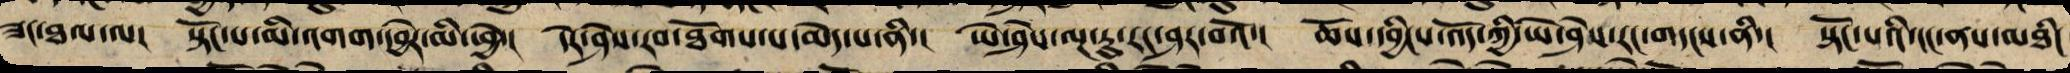ཟང་ཐལ་ལ་། སྟོང་པ་མི་འགག་དབྱེར་མི་ཕྱེ་། དེར་ཤེས་རབ་ཐོགས་པ་མེད་པ་ནི་། ཡེ་ཤེས་ལྔ་རུ་རང་ཤར་བའོ་། ཆོས་དབྱིངས་འོད་ཀྱི་ཡེ་ཤེས་རང་གདངས་ནི་། སྟོང་པའི་ངང་ནས་མཐིང
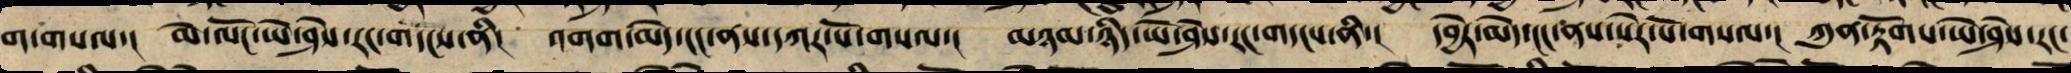ག་གསལ་། མེ་ལོང་ཡེ་ཤེས་རང་གདངས་ནི། འགག་མེད་ངང་ནས་དཀར་པོ་གསལ་། མཉམ་ཉིད་ཡེ་ཤེས་རང་གདངས་ནི་། དབྱེར་མེད་ངང་ནས་སེར་པོར་གསལ་། ཀུན་རྟོགས་ཡེ་ཤེས་རང་
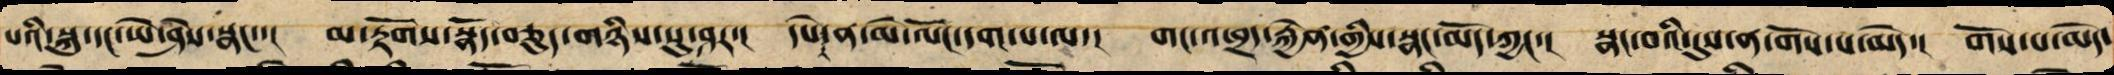པའི་སྐུ་དང་ཡེ་ཤེས་སྣང་་། མ་རྟོགས་སྣོད་བཅུད་གཉིས་སུ་ཤར་། དཔེ་ན་མེ་ལོང་དག་པ་ལ་། གང་འཕྲད་རྐྱེན་གྱིས་སྣང་མོད་ཀྱང་། སྣང་བའི་དུས་ནས་གོས་པ་མེད་། གོས་པ་མེད་
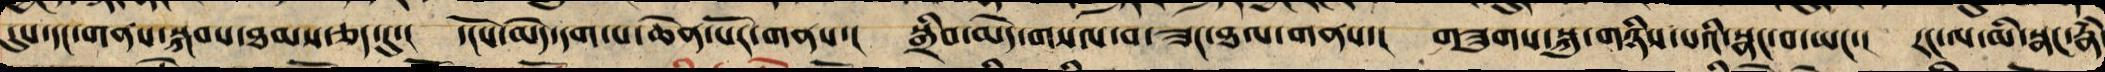དུས་དང་གནས་སྐབས་ཐམས་ཅད་དུ་། དངོས་མེད་དག་པ་ཆེན་པོར་གནས་། སྒྲིབ་མེད་གསལ་བ་ཟང་ཐལ་གནས་། གཟུགས་སྐུ་གཉིས་ཀྱི་སྣང་བ་ཡང་། རང་ལ་མི་སྣང་རྣཾ་
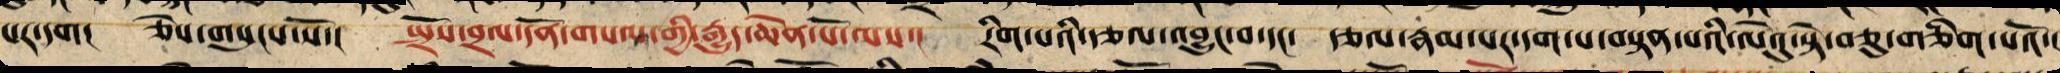པར་དག། ཅེསགསུངས་སོ་། སྤྲོས་བྲལ་དོན་གསལ་གྱི་རྒྱུད་ཆེན་པོ་ལས་། རིག་པའི་རྩལ་འབྱུང་བ་དང་ རྩལ་རྣམ་པར་དག་པ་བསྟན་པའི་ལེའུ་སྟེ་བཅུ་གཅིག་པའོ་།།
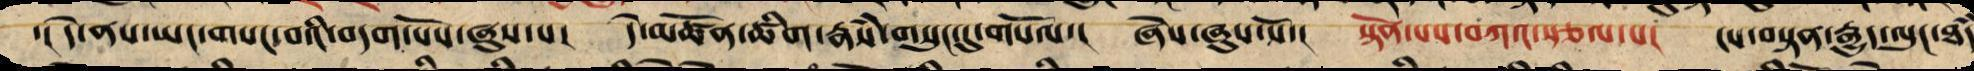་། དེ་ནས་ཡང་གསང་བའི་བདག་པོས་ཞུས་པ། དེ་མཚོན་ཚིག་རྣཾས་གསུང་དུ་གསོལ་། ཞེས་ཞུས་སོ་། སྟོན་པས་བཀའ་སྩལ་པ། ངས་བསྟན་རྒྱུད་ལུང་ཐཾད་
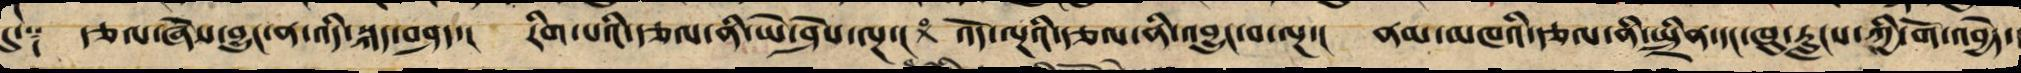དུ་༑ རྩལ་ཞེས་བྱུང་ན་འདི་སྐད་བཤད་། རིག་པའི་རྩལ་ནི་ཡེ་ཤེས་ལྔ་། ༝ འོད་ལྔའི་རྩལ་ནི་འའབྱུང་བ་ལྔ་། ནམ་མཁའི་རྩལ་ནི་སྤྲིན་དང་ཁུ་རླུང་གིས་གོ་འབྱེད་།
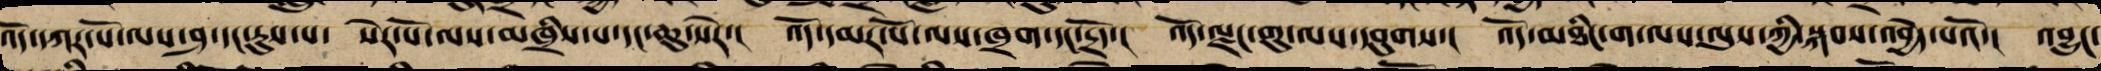འོད་དཀར་པོ་ལས་ཤ་དང་རུས་པ་ སེར་པོ་ལས་མཁྲིས་པ་དང་ཆུ་སེར་། འོད་དམར་པོ་ལས་ཁྲག་དང་དྲོད་། འོད་ལྗང་གུ་ལས་དབུགས་། འོད་མཐིང་ག་ལས་ལུས་ཀྱི་སྐབས་འབྱེད་པའོ་། འབྱུང་
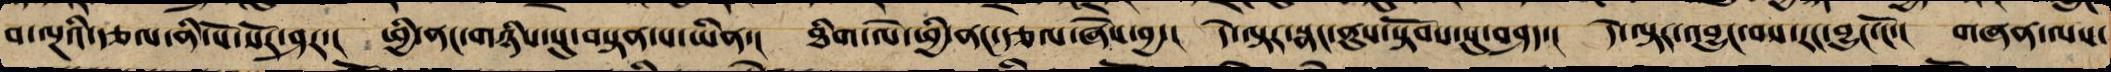བ་ལྔའི་རྩལ་ནི་སོ་སོར་ཤར་། ཕྱི་ནང་གཉིས་སུ་བསྟན་པ་ཡིན་། ཐིག་ལེ་ཕྱི་ནང་རྩལ་ཞེས་བྱ་། དེ་ལྟར་སྣང་ནུས་སྟོབས་སུ་བཤད་། དེ་ལྟར་འབྱུང་བས་རང་བྱུང་ངོ་། གཞན་ལས་
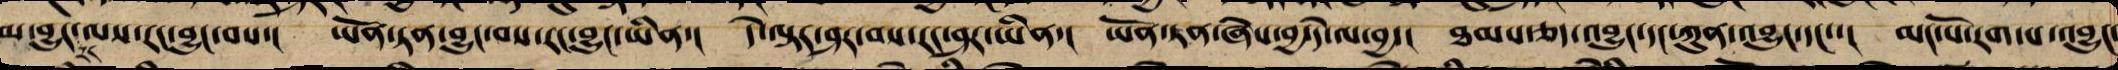མ་བྱུང་རང་ལས་རང་བྱུང་བས་། ཡོན་ཏན་འབྱུང་བས་རང་བྱུང་ཡིན་། དེ་ལྟར་ཤར་བས་རང་ཤར་ཡིན་། ཡོན་ཏན་ཞེས་བྱ་དེ་ལ་བྱ་། ཐམས་ཅད་འབྱུང་དང་ཀུན་འབྱུང་དང་་། མང་པོ་རག་པ་འབྱུང་
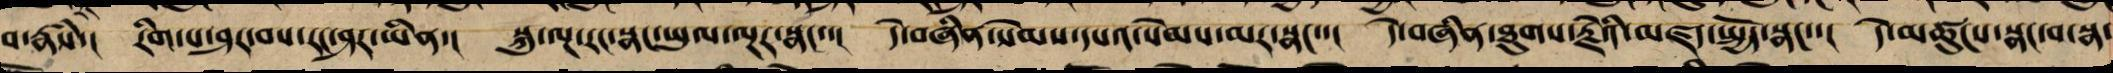བ་རྣཾས་། རིག་པ་ཤར་བས་རང་ཤར་ཡིན་། སྐུ་ལྔ་རང་སྣང་ཡུལ་ལྔར་སྣང་་། དེ་བཞིན་སེམས་དཔའ་སེམས་མར་སྣང་་། དེ་བཞིན་ཐུགས་རྗེའི་མཛད་སྤྱོད་སྣང་་། དེ་མཚུངས་སྣང་བ་སྣ་
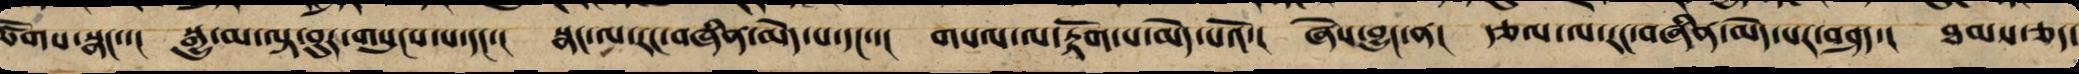ཚོགས་སྣང་་། སྒྱུ་མ་ལྟ་བུར་གསུངས་པ་དང་། སྣང་ལ་རང་བཞིན་མེད་པ་དང་་། གསལ་ལ་རྟོགས་པ་མེད་པའོ་། ཞེས་བྱུང་ན། རྩལ་ལ་རང་བཞིན་མེད་པར་བཤད་། ཐམས་ཅད་
